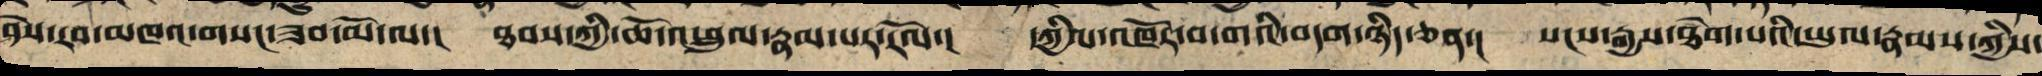ཤེས་རབ་མཁའ་གསང་ཟབ་མོ་ལ་། ཐབས་ཀྱི་ཆོ་འཕྲུལ་རྣམ་པར་རོལ་། དཀྱིལ་འཁོར་བ་གའི་བདག་ཉིད་ཅན་། སངས་རྒྱས་ཐེག་པའི་ཡུལ་རྣམས་ཀྱིས་
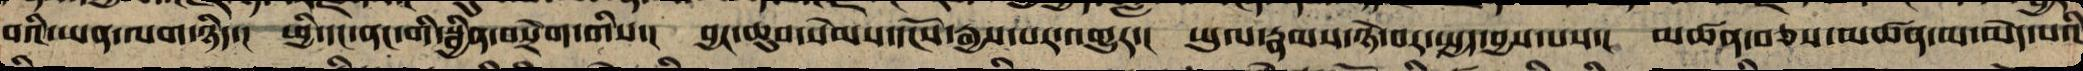བའི་ཡན་ལག་ཉིད་། ཕྱི་དང་ནང་གི་སྦྱིན་བསྲེག་གིས་། བྱང་ཆུབ་སེམས་དངོས་རྒྱས་པར་འགྱུར་། ཡུལ་རྣམས་ཉེ་བར་སྤྱད་བྱས་པས་། མཚན་བཅས་མཚན་མ་མེད་པའི
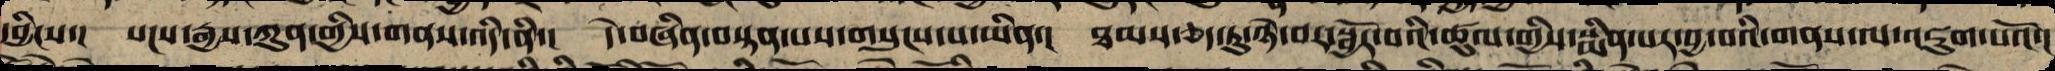དབྱིངས་། སངས་རྒྱས་ཀུན་གྱི་གནས་འདི་ནི་། དེ་ནི་བསྟན་པས་གསུངས་པ་ཡིན་། ཐམས་ཅད་དུ་ཉེ་བར་སྦྱོར་བའི་ཚུལ་གྱིས་སྨིན་པར་བྱ་བའི་གནས་ལ་འཇུག་པའོ་།
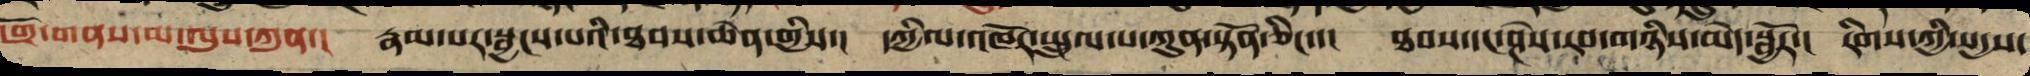འགྲོ་གནས་མ་ལུས་ཀུན་། རྣམ་པར་སྦྱངས་བའི་ཐབས་ཆེན་གྱིས་། དཀྱིལ་འཁོར་སྤྲུལ་པ་ཀུན་སྟོན་ཅིང་་། ཐབས་དང་ཤེས་རབ་གཉིས་མེད་སྦྱོར་། རིགས་ཀྱི་སདྱས་
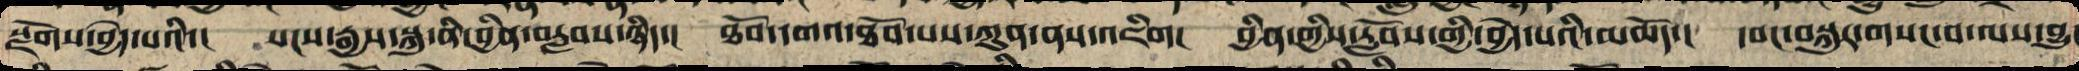སྫོགས་བྱེད་པའི་། སངས་རྒྱས་སྐུ་ནི་བྱིན་བརླབས་ཉིད་། ཐོབ་དགའ་ཐོབ་པས་ཀུན་ནས་འཇིག། བྱིན་གྱིས་རློབས་གྱི་བྱེད་པའི་མཆོད་། དབང་བསྐུར་གསང་བ་ལས་བྱུང
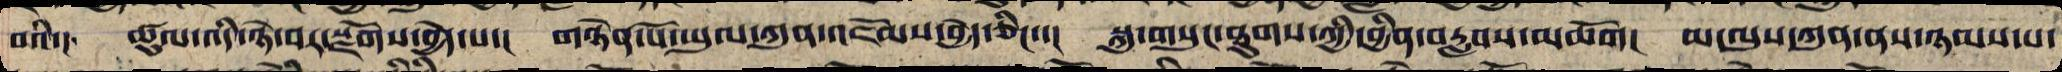བའི། ཚུལ་འདི་ཉེ་བར་སྫོགས་བྱེད་པ་། གཉེན་པོས་ཡུལ་ཀུན་འཇོམས་བྱེད་ཅིང་་། སྐུ་གསུང་ཐུགས་ཀྱི་བྱིན་བརླབས་མཆོག། མ་ལུས་ཀུན་ནས་ཉམས་པ་
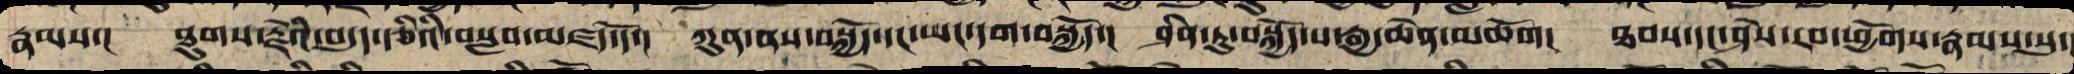རྣམས་། ཐུགས་རྗེའི་བདུད་རྩིའི་བསླབ་མཛོད་དོ་། ཀུན་ནས་སྤྱོད་དང་ཡང་དག་སྤྱོད་། ཤིན་ཏུ་བསྐྱོད་པ་རྒྱ་ཆེན་མཆོག། ཐབས་དང་ཤེས་རབ་ཕྱོགས་རྣམས་སུ་
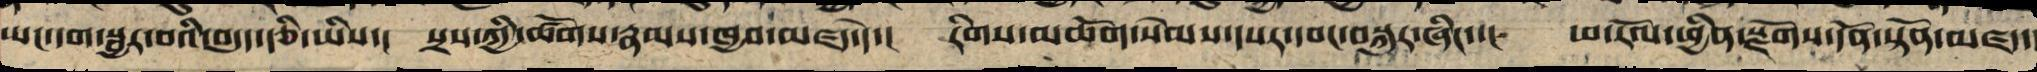ཡང་དག་སྦྱར་བའི་བདུད་རྩི་ཡིས་། སྲས་ཀྱི་ཚོགས་རྣམས་ཁྱབ་མཛད་དེ་། རིགས་མཆོག་སེམས་དཔར་དབང་བསྐུར་ཞིང་་། ཕ་རོལ་ཕྱིན་སྫོགས་དོན་སྟོན་མཛད་
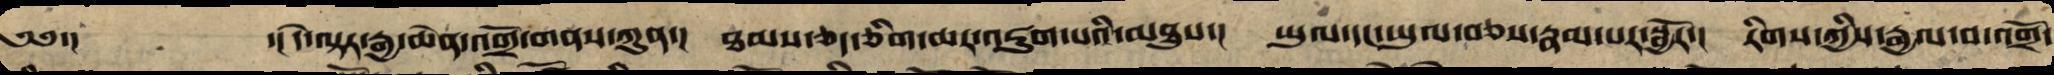༄༅་། ་།དེ་ལྟར་རྒྱ་ཆེན་འགྲོ་གནས་ཀུན་། ཐམས་ཅད་ཅིག་ཆར་འཇུག་པའི་མཐུས་། ཡུལ་དང་ཡུལ་ཅན་རྣམ་པར་སྦྱོར་། རིགས་ཀྱི་རྒྱལ་བ་འགྲོ་
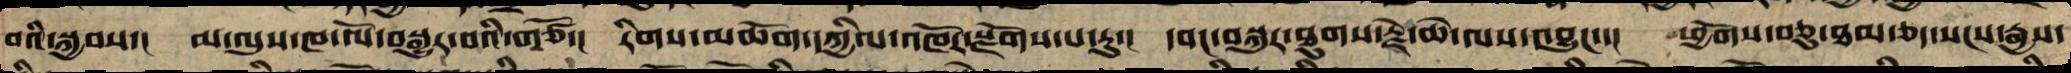བའི་སྐྱབས་། མ་ལུས་ཁ་ལོ་བསྒྱུར་བའི་གཙོ་། རིགས་མཆོག་དཀྱིལ་འཁོར་སྫོགས་པ་རུ་། དབང་བསྐུར་ཐུགས་རྗེ་ཆེ་ལས་འབྱུང་་། ཕྱོགས་བཅུ་ཐམ་ཅད་སངས་རྒྱས་
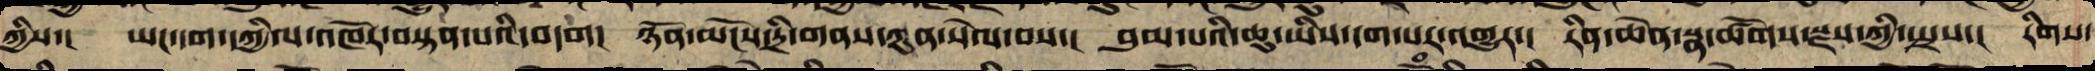ཀྱིས་། ཡང་དག་དཀྱིལ་འཁོར་བསྟན་པའི་བདག། ཉོན་མོངས་དྲི་གནས་ཀུན་སེལ་བས་། བུམ་པའི་ཆུ་ཡིས་དག་པར་འགྱུར་། རིན་ཆེན་སྣ་ཚོགས་སྫས་ཀྱིས་སྤྲས་། རིགས་
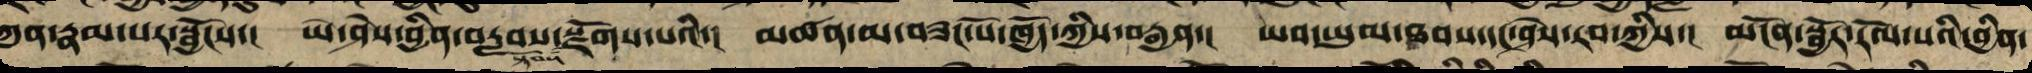ཀུན་རྣམ་པར་སྦྱོངས་། ཡེ་ཤེས་བྱིན་བརླབས་སྟོབས་སྫོགས་པའི་། མཚན་མ་བཟང་པོ་ཁྱོད་ཀྱི་བརྒྱན་། ཡབ་ཡུམ་ཐབས་དང་ཤེས་རབ་ཀྱིས་། མངོན་སྦྱོར་རོལ་པའི་བྱིན་
